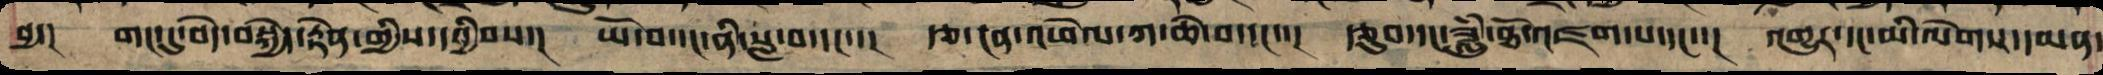བྱ་། གང་དུ་བདེ་བསྐྱེད་རྟེན་གྱི་དབྱིབས་། ཡོ་བ་དང་ནི་སླ་བ་དང་་། རྩ་ངན་འཕེལ་ཁ་ཆེ་བ་དང་་། རྩུབ་གང་ཟླུཾ་མཐོ་འཛག་པ་དང་་། འགྱུར་དང་མི་ལེགས་དམན་
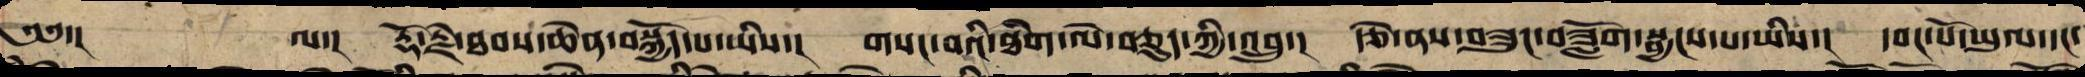༄༅་། ལ་། རྡོ་རྗེ་ཐབས་ཆེན་བསྐྱོད་པ་ཡིས་། གསང་བའི་ཐིག་ལེ་བཅུད་ཀྱི་འབྲུ། རྩེ་ནས་བཟུང་བཟློག་སྦྱངས་པ་ཡིས། དབང་པོ་ཡུལ་དང་
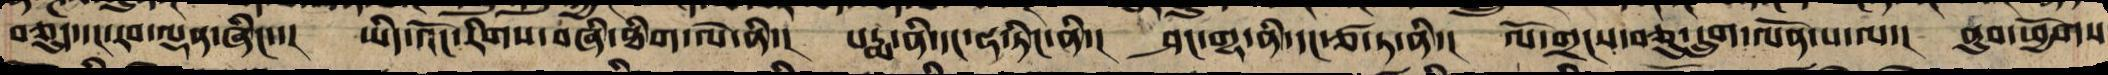བཅུད་དང་རབ་ལྡན་ཞིང་་། ཡིད་འོང་རིགས་བཞི་ཐིག་ལེ་ནི་། པདྨ་ནི་དང་ཧ་ཏིང་ནི་། ཤང་གྷ་ན་དང་ཙ་ཏ་ནི་། ལོ་གྲངས་བཅུ་དྲུག་ལོན་པ་ལ་། ནུབ་ཕྱོགས
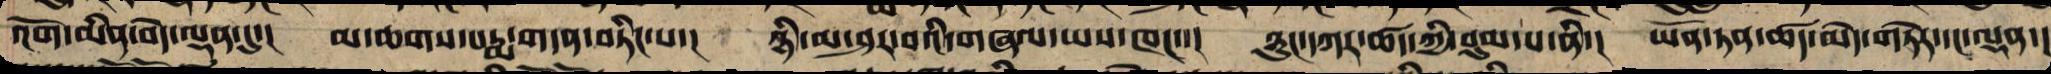འོག་མིན་བདེ་ལྡན་དུ་། མ་ཆགས་པདྨ་གདན་བཏིང་བ་། ཉི་མ་ཤར་བའི་གཞལ་ཡས་ཁང་་། ཉུང་དཀར་ཚད་ཀྱི་བུམ་པ་ནི་། ཡོན་ཏན་ཚད་མེད་གཏེར་དང་ལྡན་།
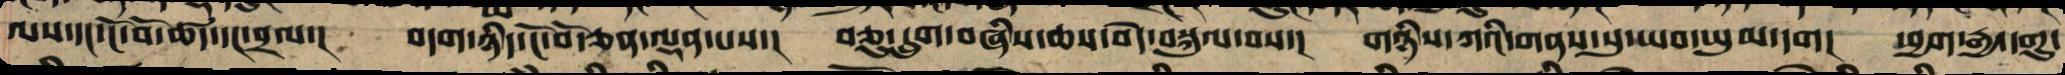ལས་དང་ངོ་བོ་ཚད་དང་བྲལ་། བདག་ཉིད་ངོ་བོ་ཅན་ལྡན་པས་། བཅུ་དྲུག་བཞིས་ཆས་བདེ་བསྐུལ་བས་། གཉིས་ཀའི་གནས་སུ་ཡབ་ཡུམ་དག། ཕྱག་རྒྱ་དགུ་
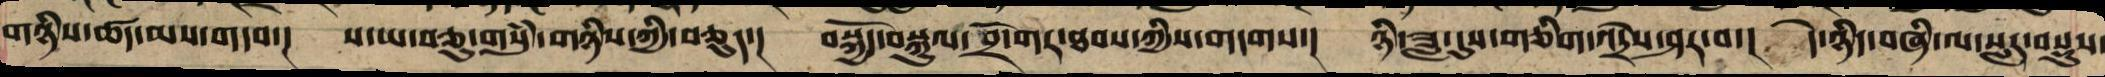གཉིས་ཚད་མས་གདབ་། ས་ཡ་བཅུ་གསུཾ་གཉིས་ཀྱི་བཅུད་། བསྐྱོད་བསྐུལ་བྲོ་གར་ཐབས་ཀྱིས་གདགས་། ཉི་ཟླ་དུས་གཅིག་འདྲེས་ཤར་བ་། དེ་ཉིད་བཞི་ལ་སླར་བསྡུས་
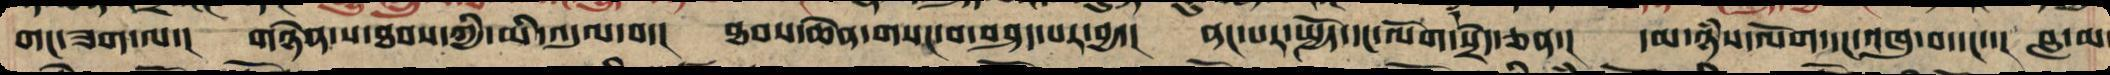གང་ཟག་ལ་། གཉེན་པོ་ཐབས་ཀྱིས་མི་འདུལ་བ་། ཐབས་ཆེན་གསང་བ་བཤད་པར་བྱ་། ནང་པར་སྤྱོད་དང་ལོག་སྲེད་ཅན་། དམ་ཉཾས་ལོག་དང་འཁུ་བ་དང་་། བླ་མ
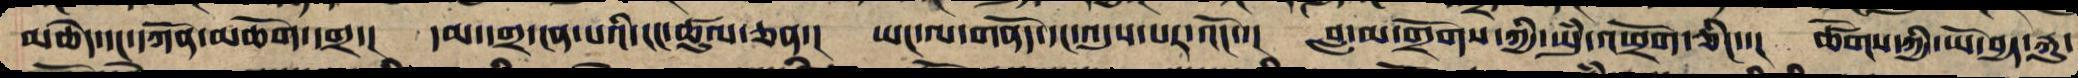མཆོད་དང་དཀོན་མཆོག་དགྲ་། དམ་དགྲ་ངན་པའི་ངང་ཚུལ་ཅན་། ཡང་ལ་གནོད་དང་འདུས་པར་འོང་། བླ་མ་གྲོགས་ཀྱི་ཡུཾ་ཕྲོག་ཅིང་་། ཚོགས་ཀྱི་ཡོ་བྱད་རྐུ་
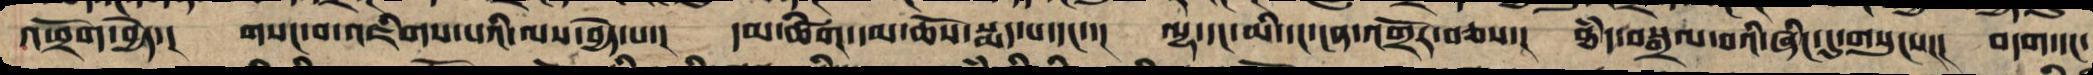འཕྲོག་བྱེད་། གསང་བ་འཇིགས་པའི་ལས་བྱེད་པ་། དམ་ཚིག་དམ་ཆོས་སྨད་པ་དང་་། ལྷ་དང་མི་དང་ངན་འགྲོར་བཅས་། ཐཾད་བསྒྲལ་བའི་ཞིང་དུ་གསུངས་། བདག་དང་
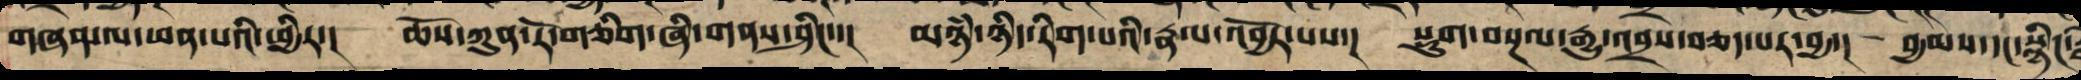གཞན་ལ་ཕན་པའི་ཕྱིར་། ཆོས་ཀུན་རོ་གཅིག་ཉིད་གནས་ཤིང་་། མཉཾ་ཉིད་རིག་པའི་རྣལ་འབྱོར་པས་། སྡུག་བསྔལ་རྒྱུ་འབྲས་གཅད་པར་བྱ་། བྱམས་དང་སྙིང་རྗེ
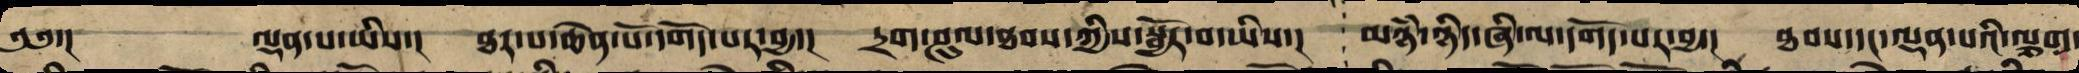༄༅་། ལྡན་པ་ཡིས་། ཐར་པ་ཆེན་པོར་དགོད་པར་བྱ་། དྲག་ཤུལ་ཐབས་ཀྱི་སྦྱོར་བ་ཡིས་། མཉཾ་ཉིད་ཞི་ལ་དགོད་པར་བྱ་། ཐབས་དང་ལྡན་པའི་ལྕག་
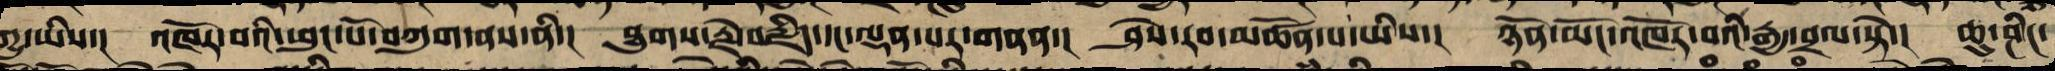ཀྱུ་ཡིས་། འཁོར་བའི་ཕུང་པོ་བཀུག་ནས་ནི་། ཐུགས་རྗེ་བརྗིད་དང་ལྡན་པར་གནན་། ཤེས་རབ་མཚོན་པ་ཡིས་། ཉོན་མོང་འཁོར་བའི་རྒྱ་དྲལ་ཏེ་། ཆུ་ཤིང་
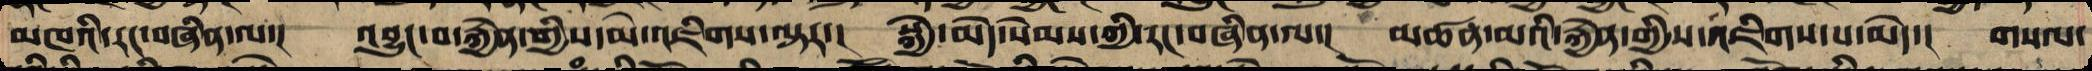མཁའི་རང་བཞིན་ལ་། འབྱུ།་བ་རྐྱེན་གྱིས་མེ་འཇིག་ལྟར་། སྐྱེ་མེད་སེམས་ཀྱི་རང་བཞིན་ལ་། མཚན་མའི་རྐྱེན་གྱིས་འཇིག་པ་མེད་། གསལ་
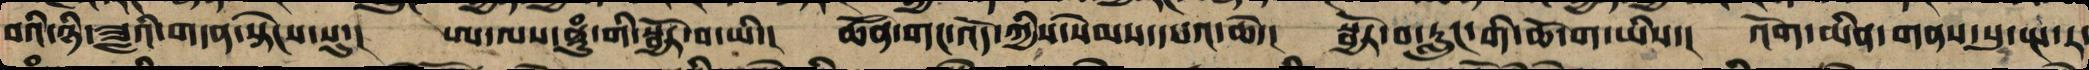བ་ཉི་ཟླའི་གདན་སྟེངས་སུ་། ཨ་ལས་ཧཱུཾ་གི་སྦྱོར་བ་ཡིས་། ཚོན་གང་འོད་ཀྱི་སེམས་དཔའ་ཆེ་། སྦྱོར་བ་རླུང་གི་ཆོ་ག་ཡིས་། འོག་མིན་གནས་སུ་སྤ་ར་
